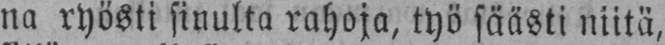na ryösti sinulta rahoja, työ säästi niitä,
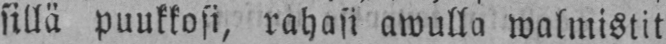sillä puukkosi, rahasi awulla walmistit
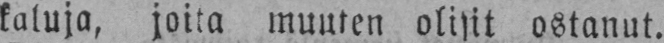kaluja, joita muuten olisit ostanut.
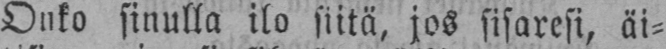Onko sinulla ilo siitä, jos sisaresi, äi-
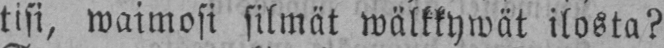tisi, waimosi silmät wälkkywät ilosta?
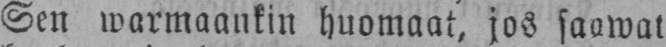Sen warmaankin huomaat, jos saawat
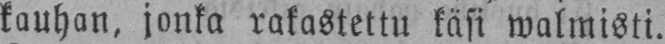kauhan, jonka rakastettu käsi walmisti.
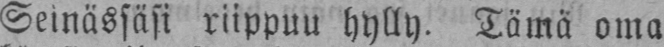Seinässäsi riippuu hylly. Tämä oma
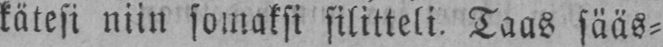kätesi niin somaksi silitteli. Taas sääs-
